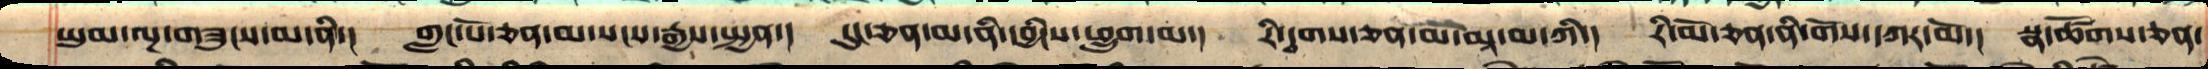ཡུམ་ལྔ་གཟུངས་མ་ནི་།  གླང་པོ་ཅན་མ་སངས་རྒྱས་སྤྱན་།  དུང་ཅན་མ་ནི་དབྱིངས་ཕྱུག་མ་།  རི་དྭགས་ཅན་མ་མཱ་མ་ཀི་།  རི་མོ་ཅན་ནི་གོས་དཀར་མོ་།  སྣ་ཚོགས་ཅན་
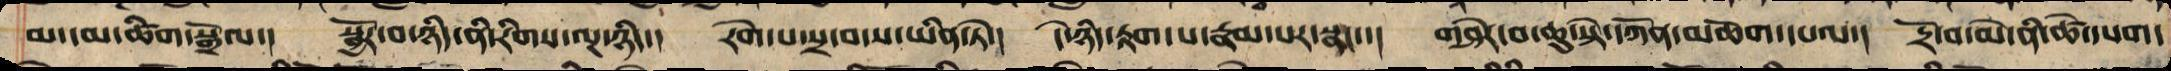མ་དམ་ཚིག་སྒྲོལ་།  སྦྱོར་བ་ཉིད་ནི་རིགས་ལྔ་ཉིད་།  རིག་པ་སྲ་བ་ས་ཡིན་ཏེ་།  དེ་ཉིད་རྟག་པ་རྣམ་པར་སྣང་་།  གཤེར་བ་ཆུ་སྟེ་དཀོན་མཆོག་དཔལ་།  དྲོ་བ་མེ་ནི་ཚེ་དཔག་
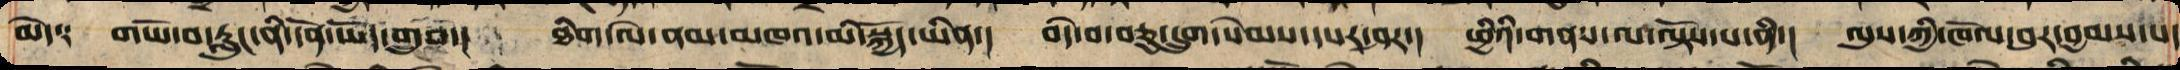མེད༑ གཡོ་བ་རླུང་ནི་དོན་ཡོད་གྲུབ་།  ཐིག་ལེ་ནམ་མཁའ་མི་བསྐྱོད་ཡིན་།  བདེ་བ་བཅུ་དྲུག་སེམས་དཔར་ཤར་།  ཕྱི་ཡི་གནས་ལ་ལྟོས་པ་ནི་།  ལུས་ཀྱི་ཁོལ་བུར་བྱམས་པ་
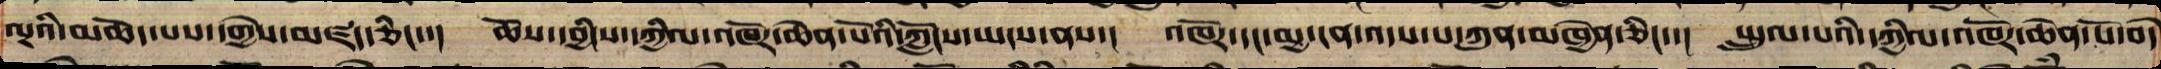ལྔ་ཡི་མཆོད་པས་དགྱེས་མཛད་ཅིང་།  ཆོས་དབྱིངས་དཀྱིལ་འཁོར་ཆེན་པོའི་ཀློངས་ཡངས་ནས་།  འཁོར་དང་མྱ་ངན་འདས་པ་ཀུན་མཁྱེན་ཅིང་།  སྤྲུལ་པའི་དཀྱིལ་འཁོར་ཆེན་པོ་བདེ
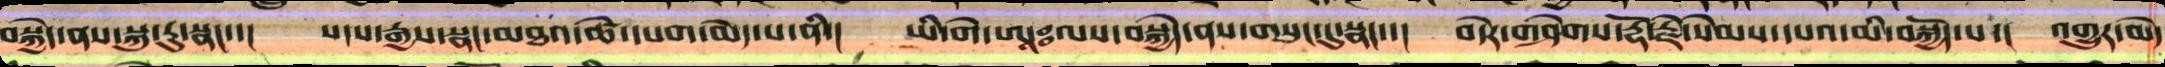བསྐྱེད་ནས་སྐུ་རུ་སྣང་་། སངས་རྒྱས་སྣང་མཐའ་ཚེ་དཔག་མེད་པ་ནི་།  ཡི་གེ་ཨཱཿལས་བསྐྱེད་ནས་གསུང་དུ་སྣང་་།  བདེ་གཤེགས་རྡོ་རྗེ་སེམས་དཔའ་མི་བསྐྱོད་པ་།  འགྱུར་མེད
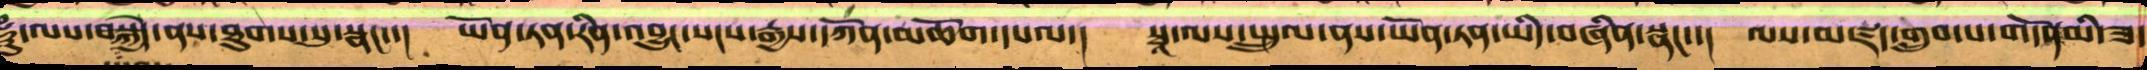ཧཱུཾ་ལས་བསྐྱེད་ནས་ཐུགས་སུ་སྣང་། ཡོན་ཏན་རིན་འབྱུང་སངས་རྒྱས་དཀོན་མཆོག་དཔལ་། སྭཱ་ལས་སྤྲུལ་ནས་ཡོན་ཏན་ཡིད་བཞིན་སྣང་་།  ལས་མཛད་གྲུབ་པ་གདོན་མི་ཟ་
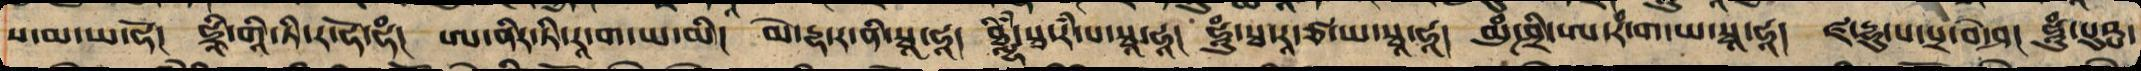ས་མ་ཡ་ཧོ། ཧྲཱི་གཱི་ཏི་རཱ་ཧོ་ཧཾ། ཨ་ནིར་ཏི་རཱ་ག་ཡ་མི། མེ་དྷ་ར་ནི་སྭ་ཧཱ།  ཐིཾ་སྭ་རཾ་པ་སྭཱ་ཧཱ། མུཾ་ཤྲཱི་ཨ་རཾ་ག་ཡ་སྭཱ་ཧཱ། ཛ་དྷུ་པ་པྲ་བེ་ཤ། ཧཱུཾ་པུཥྤེ་
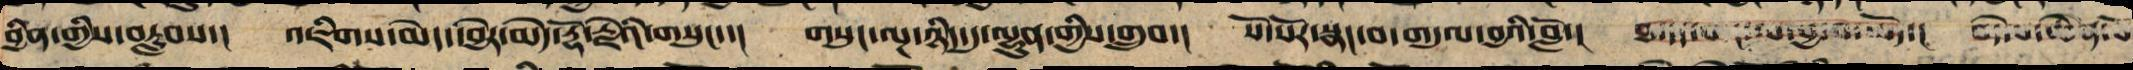བྱིན་གྱིས་བརླབས་། འཇིགས་མེད་དབྱེར་མེད་རྡོ་རྗེའི་གསུང་་། གསུང་ལྔ་ཉིད་དུ་ལྷུན་གྱིས་གྲུབ་། སོ་སོར་སྣང་བ་གདུལ་བྱའི་བློ་། ཐ་དད་པའང་ལ་བྱ་བ་ཡོད་། བདེ་བ་ཆེན་པོ་
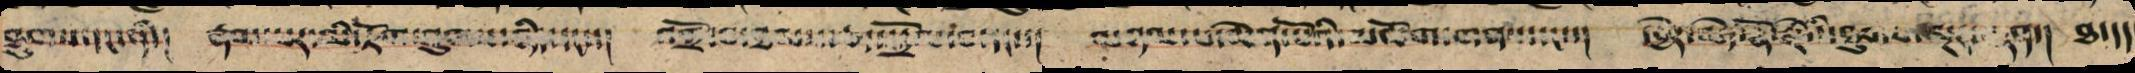ཐུགས་དང་ནི་།  རྣམ་པར་མི་རྟོག་ཕྲུལ་པ་ཉིད་དང་།  འགྲོ་བ་ཐམས་ཅད་འདྲེལ་བ་དང་།  མཉལ་པ་ཆེན་པོའི་མཆོག་གན་དངངས་། དཔྱིར་མདོ་རྡོ་རྗེའི་ཐུབ་པ་སྔར་རྟན་།  ཐ་དད་
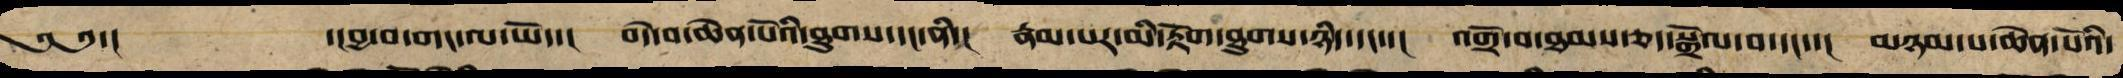༄༅་།      ་།བྱ་བ་གང་ལ་ཡོད་།  བདེ་བ་ཆེན་པོའི་ཐུགས་དང་ནི་།  རྣམ་པར་མི་རྟོག་ཐུགས་ཉིད་དང་།  འགྲོ་བ་ཐམས་ཅད་སྒྲོལ་བ་དང་་།  མཉམ་པ་ཆེན་པོའི་
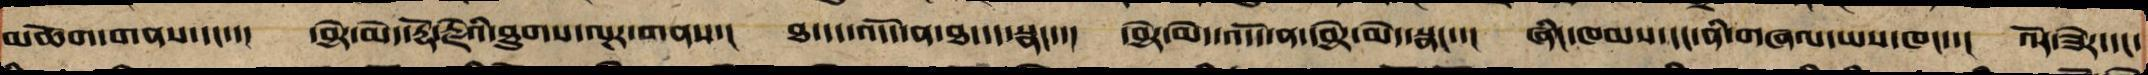མཆོག་གནས་དང་་།  དབྱེར་མེད་རྡོ་རྗེའི་ཐུགས་ལྔར་གནས་།  ཐ་དད་འདོད་ན་ཐ་དད་སྣང་་།  དབྱེར་མེད་འདོད་ན་དབྱེར་མེད་སྣང་་།  ཞིང་ཁམས་དང་ནི་གཞལ་ཡས་ཁང་་།  འོད་ཟེར་དང་
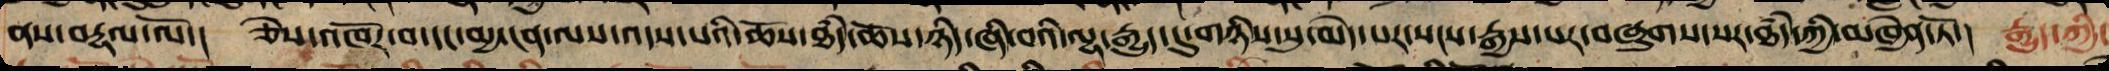ནས་བརྡལ་ལོ་།  ཅེས་འཁོར་བ་དང་མྱ་ངན་ལས་འདས་པའི་ཆོས་ཐཾད་ཆོས་ཉིད་ཞི་བའི་ལྷ་རྒྱུད་དུ་གཉིས་སུ་མེད་པར་སངས་རྒྱས་པར་བཞུགས་པར་ཐཾད་ཀྱི་མཁྱེན་ཏོ་།  རྒྱུད་ཀྱི་
